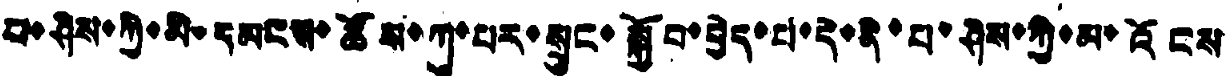པ་ཤིས་ཀྱི་མི་དམངས་ཚོས་ཀུ་པར་སྲུང་སྐྱོབ་བྱེད་པ་དེ་ནི་པ་ཤིས་ཀྱི་མ་འོངས
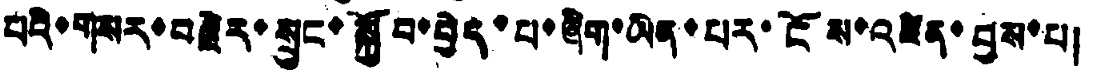པའི་གསར་བརྗེར་སྲུང་སྐྱོབ་བྱེད་པ་ཞིག་ཡིན་པར་ངོས་འཛིན་བྱས་པ།
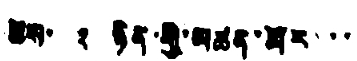ཚེས་ ༢ ཉིན་གྱི་མཚན་མོར་་་
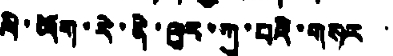ལི་ཡོག་རི་ནེ་ལུར་ཀུ་པའི་གསར་
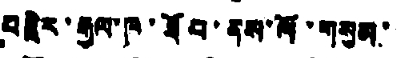བརྗེར་རྒྱལ་ཁ་ཐོབ་ནས་ལོ་གསུམ་
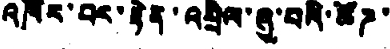འཁོར་པར་རྟེན་འབྲེལ་ཞུ་བའི་ཚོཌ་
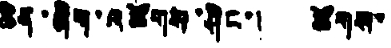ཆེན་ཞིག་འཚོགས་ཤིང་། ཚོགས་
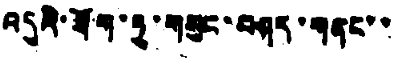འདུའི་ཐོག་ཏུ་གསུང་བཤད་གནང་་
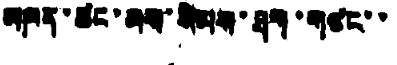མཁན་ཚང་མས་སེམས་ཐག་གཙང་་
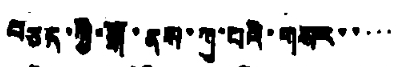བཅད་ཀྱི་སྒོ་ནས་ཀུ་པའི་གསར་་་་་
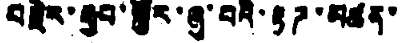བརྗེར་རྒྱབ་སྐྱོར་ཞུ་བའི་རྟཌ་མཚན་
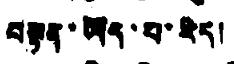བསྟན་ཡོད་པ་རེད།
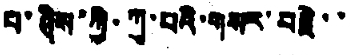པ་ཤིས་ཀྱི་ཀུ་པའི་གསར་བརྗེ་་
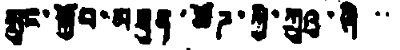སྲུང་སྐྱོབ་མཐུན་ཚོཌ་ཀྱི་ཀྲུའུ་ཞི་་
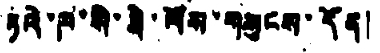ཏའེ་ཁ་སི་ཐེ་ལོས་གསུངས་དོན།
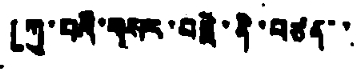「ཀུ་པའི་གསར་བརྗེ་ནི་བཙན་་
